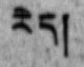རེད།
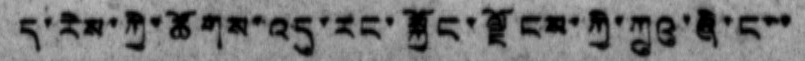ད་རེས་ཀྱི་ཚོགས་འདུ་རང་སྐྱོང་ལྗོངས་ཀྱི་ཀྲུའུ་ཞི་ང་་་
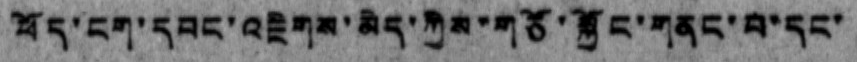ཕོད་ངག་དབང་འཇིགས་མེད་ཀྱིས་གཙོ་སྐྱོང་གནང་བ་དང་
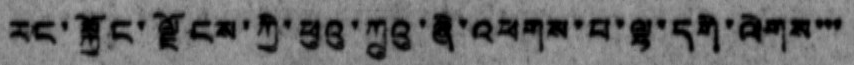རང་སྐྱོང་ལྗོངས་ཀྱི་ཕུའུ་ཀྲུའུ་ཞི་འཕགས་པ་ལྷ་དགེ་ལེགས་་་
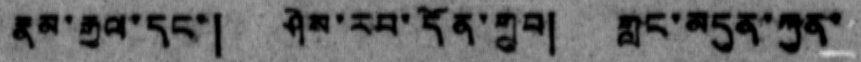རྣམ་རྒྱལ་དང་། ཤེས་རབ་དོན་གྲུབ། གླང་མདུན་ཀུན་
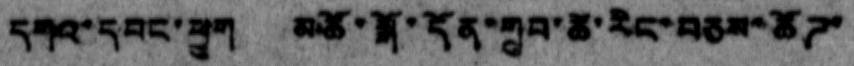དགའ་དབང་ཕྱུག མཚོ་སྒོ་དོན་གྲུབ་ཚེ་རིང་བཅས་ཚོཌ་
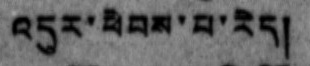འདུར་ཕེབས་པ་རེད།
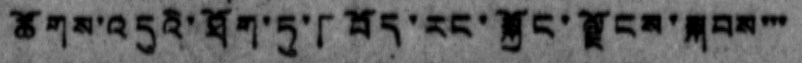ཚོགས་འདུའི་ཐོག་ཏུ་「བོད་རང་སྐྱོང་སྗོངས་སྐབས་་་
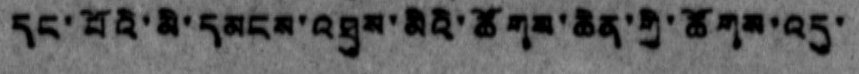དང་པོའི་མི་དམངས་འཐུས་མིའི་ཚོགས་ཆེན་གྱི་ཚོགས་འདུ་
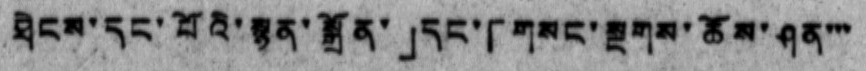ཐེངས་དང་པོའི་སྙན་སྒྲོན་」དང་། 「གསང་ལྔགས་ཆོས་ཤན་་་
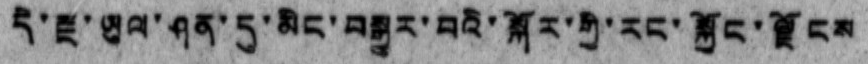དེ་རྫ་ཡུལ་ཤན་དུ་མིང་བསྒྱུར་བའི་སྐོར་གྱི་རང་སྐྱོང་ལྗོངས
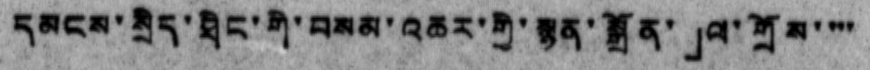དམངས་སྲིད་ཐིང་གི་བསམ་འཆར་གྱི་སྙན་སྒྲོན་」ལ་གྲོས་་་་
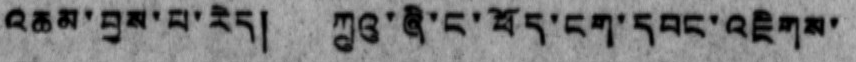འཆམ་བྱས་པ་རེད། ཀྲུའུ་ཞི་ང་ཕོད་ངག་དབང་འཇིགས་
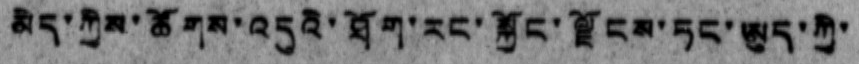མེད་ཀྱིས་ཚོགས་འདུའི་ཐོག་རང་སྐྱོང་ལྗོངས་ཏང་ཨུད་ཀྱི་
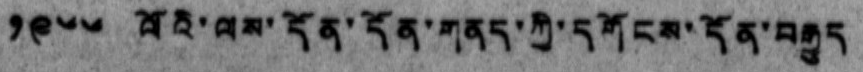༡༩༦༦ ལོའི་ལས་དོན་དོན་གནད་ཀྱི་དགོངས་དོན་བརྒྱུད
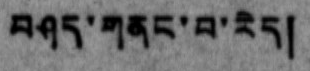བཤད་གནང་བ་རེད།
